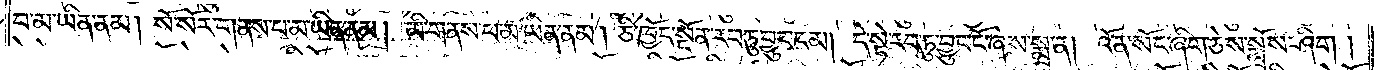བ་མ་ཡིན་ནམ། སོ་སོར་གནས་པ་མ་ཡིན་ནམ། མི་གནས་ཕ་མ་ཡིན་ནམ། ཅི་ཁྱོད་སྔོན་རབ་ཏུ་བྱུང་ངམ། དེ་སྟེ་རབ་ཏུ་བྱུང་ངོ་ཞེས་སྨྲ་ན། འོན་སོང་ཞིག་ཅེས་སྨྲོས་ཤིག།
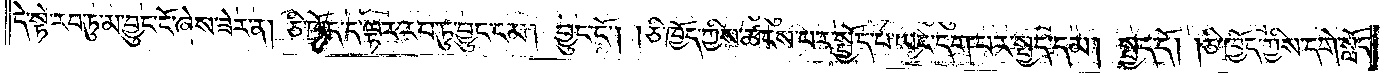དེ་སྟེ་རབ་ཏུ་མ་བྱུང་ངོ་ཞེས་ཟེར་ན། ཅི་ཁྱོད་ད་ལྟར་རབ་ཏུ་བྱུང་ངམ། བྱུང་ངོ༌། །ཅི་ཁྱོད་ཀྱིས་ཚངས་པར་སྤྱོད་པ་ཡང་དག་པར་སྤྱད་དམ། སྤྱད་དོ། །ཅི་ཁྱོད་ཀྱིས་དགེ་སློང་
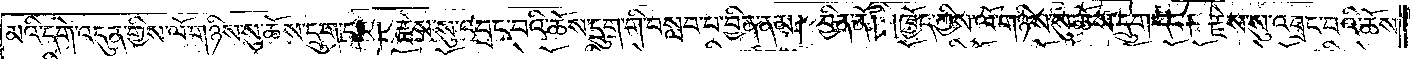མའི་དགེ་འདུན་གྱིས་ལོ་གཉིས་སུ་ཆོས་དྲུག་དང༌། རྗེས་སུ་འབྲང་བའི་ཆོས་དྲུག་གི་བསླབ་པ་བྱིན་ནམ། བྱིན་ནོ། །ཁྱོད་ཀྱིས་ལོ་གཉིས་སུ་ཆོས་དྲུག་དང༌། རྗེས་སུ་འབྲང་བའི་ཆོས་
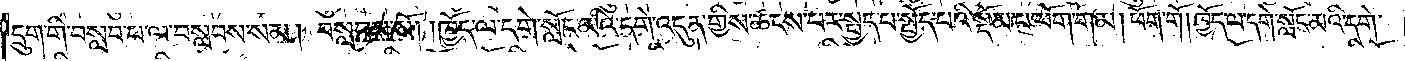དྲུག་གི་བསླབ་པ་ལ་བསླབས་སམ། བསླབས་སོ། །ཁྱོད་ལ་དགེ་སློང་མའི་དགེ་འདུན་གྱིས་ཚངས་པར་སྤྱད་པ་སྤྱོད་པའི་སྡོམ་པ་ཕོག་གམ། ཕོག་གོ། ཁྱོད་ལ་དགེ་སློང་མའི་དགེ་
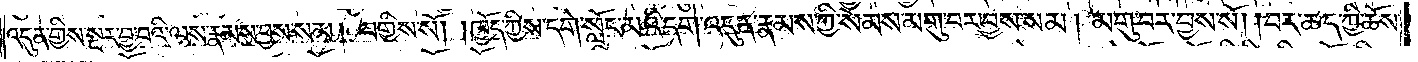འདུན་གྱིས་སྔར་བྱ་བའི་ལས་རྣམས་བྱས་སམ། བགྱིས་སོ། །ཁྱོད་ཀྱིས་དགེ་སློང་མའི་དགེ་འདུན་རྣམས་ཀྱི་སེམས་མགུ་བར་བྱས་སམ། མགུ་བར་བྱས་སོ། །བར་ཆད་ཀྱི་ཆོས་
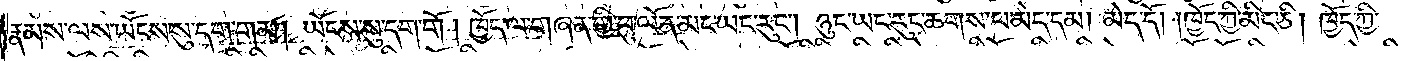རྣམས་ལས་ཡོངས་སུ་དག་གམ། ཡོངས་སུ་དག་གོ །ཁྱོད་ལ་གཞན་གྱི་བུ་ལོན་མང་ཡང་རུང༌། ཉུང་ཡང་རུང་ཆགས་པ་མེད་དམ། མེད་དོ། །ཁྱོད་ཀྱི་མིང་ཅི། ཁྱོད་ཀྱི་
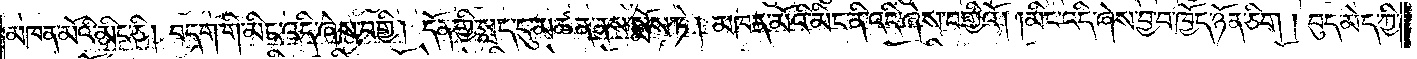མཁན་མོའི་མིང་ཅི། བདག་གི་མིང་འདི་ཞེས་བགྱི། དོན་གྱི་སླད་དུ་མཚན་ནས་སྨོས་ཏེ། མཁན་མོའི་མིང་ནི་འདི་ཞེས་བགྱིའོ། །མིང་འདི་ཞེས་བྱ་བ་ཁྱོད་ཉོན་ཅིག །བུད་མེད་ཀྱི་
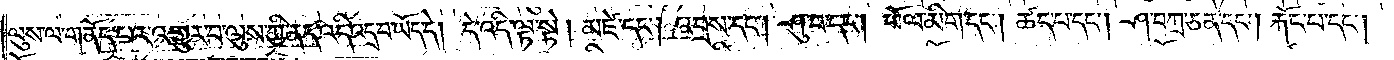ལུས་ལ་གནོད་པར་འགྱུར་བ་ལུས་ཀྱི་ནད་འདི་འདྲ་བ་ཡོད་དེ། དེ་འདི་ལྟ་སྟེ། མཛེ་དང༌། འབྲས་དང༌། ཤུ་བ་དང༌། ཕོལ་མིག་དང༌། ཚད་པ་དང༌། ཤ་བཀྲ་ཅན་དང༌། རྐོང་པ་དང༌།
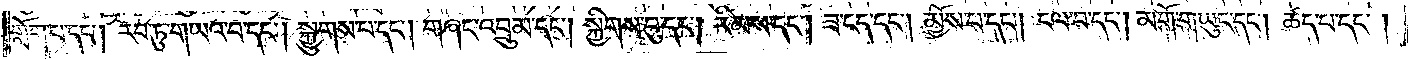གློག་པ་དང༌། རབ་ཏུ་གཡའ་བ་དང༌། སྐྱུགས་པ་དང༌། གཞང་འབྲུམ་དང༌། སྐྱིགས་བུ་དང༌། རིམས་དང༌། ཟ་ངད་དང༌། མྱོས་པ་དང༌། ངལ་བ་དང༌། མགོ་གཡུང་དང༌། ཚད་པ་དང༌།
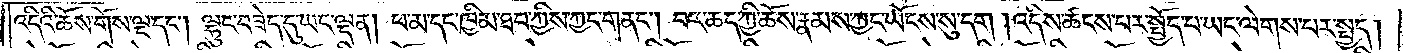འདིའི་ཆོས་གོས་ལྔ་དང༌། ལྷུང་བཟེད་དུ་ཡང་ལྡན། ཕ་མ་དང་ཁྱིམ་ཐབ་ཀྱིས་ཀྱང་གནང༌། བར་ཆད་ཀྱི་ཆོས་རྣམས་ཀྱང་ཡོངས་སུ་དག །འདིས་ཚངས་པར་སྤྱོད་པ་ཡང་ལེགས་པར་སྤྱད།
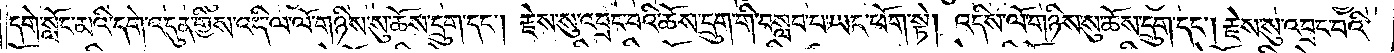དགེ་སློང་མའི་དགེ་འདུན་གྱིས་འདི་ལ་ལོ་གཉིས་སུ་ཆོས་དྲུག་དང༌། རྗེས་སུ་འབྲང་བའི་ཆོས་དྲུག་གི་བསླབ་པ་ཡང་ཕོག་སྟེ། འདིས་ལོ་གཉིས་སུ་ཆོས་དྲུག་དང༌། རྗེས་སུ་འབྲང་བའི་
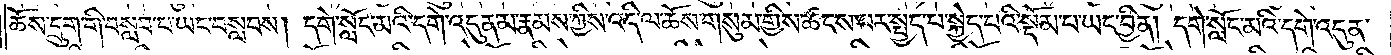ཆོས་དྲུག་གི་བསླབ་པ་ཡང་བསླབས། དགེ་སློང་མའི་དགེ་འདུན་མ་རྣམས་ཀྱིས་འདི་ལ་ཆོས་གསུམ་གྱིས་ཚངས་པར་སྤྱད་པ་སྐྱེད་པའི་སྡོམ་པ་ཡང་བྱིན། དགེ་སློང་མའི་དགེ་འདུན་
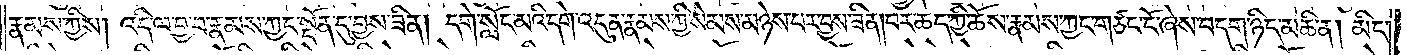རྣམས་ཀྱིས། འདི་ལ་བྱ་བ་རྣམས་ཀྱང་སྔོན་དུ་བྱས་ཟིན། དགེ་སློང་མའི་དགེ་འདུན་རྣམས་ཀྱི་སེམས་མཉེས་པར་བྱས་ཟིན། བར་ཆད་ཀྱི་ཆོས་རྣམས་ཀྱང་གཙང་ངོ་ཞེས་བདག་ཉིད་མཆི་ན། མིང་
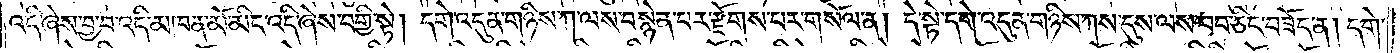འདི་ཞེས་བྱ་བ་འདི་མཁན་མོ་མིང་འདི་ཞེས་བགྱི་སྟེ། དགེ་འདུན་གཉིས་ཀ་ལས་བསྙེན་པར་རྫོགས་པར་གསོལ་ན། དེ་སྟེ་དགེ་འདུན་གཉིས་ཀས་དུས་ལས་བབ་ཅིང་བཟོད་ན། དགེ་
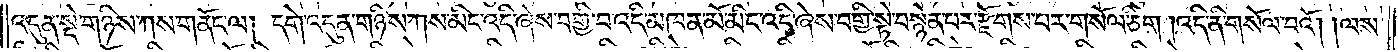འདུན་སྡེ་གཉིས་ཀས་གནོང་ལ། དགེ་འདུན་གཉིས་ཀས་མིང་འདི་ཞེས་བགྱི་བ་འདི་མཁན་མོ་མིང་འདི་ཞེས་བགྱི་སྟེ་བསྙེན་པར་རྫོགས་པར་གསོལ་ཅིག །འདི་ནི་གསོལ་བའོ། །ལས་
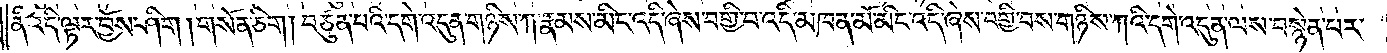ནི་འདི་ལྟར་བྱོས་ཤིག །གསོན་ཅིག །བཙུན་པའི་དགེ་འདུན་གཉིས་ཀ་རྣམས་མིང་འདི་ཞེས་བགྱི་བ་འདི་མཁན་མོ་མིང་འདི་ཞེས་བགྱི་བས་གཉིས་ཀའི་དགེ་འདུན་ལས་བསྙེན་པར་
